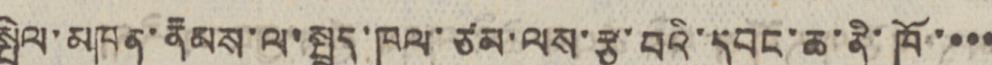སྤེལ་མཁན་རྣམས་ལ་སྤྲད་ཁུལ་ཙམ་ལས་རྩ་བའི་དབང་ཆ་ནི་ཁོ་་་་
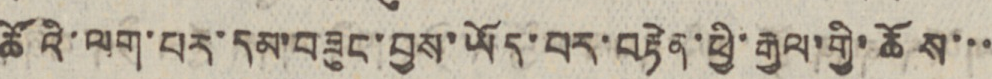ཚོའི་ལག་པར་དམ་བཟུང་བྱས་ཡོད་པར་བརྟེན་ཕྱི་རྒྱལ་གྱི་ཆོས་་་
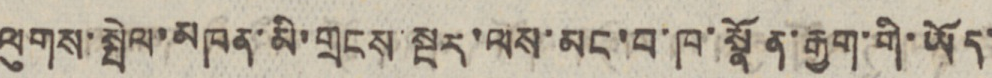ལུགས་སྤེལ་མཁན་མི་གྲངས་སྔར་ལས་མང་བ་ཁ་སྣོན་རྒྱག་གི་ཡོད་
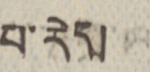པ་རེད།
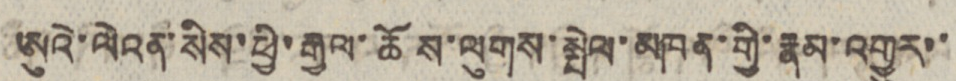ཨུའེ་ལེའན་སིས་ཕྱི་རྒྱལ་ཆོས་ལུགས་སྤེལ་མཁན་གྱི་རྣམ་འགྱུར་་
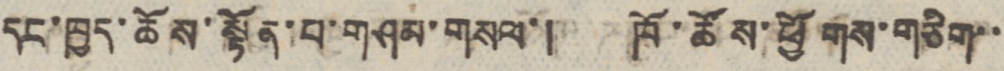དང་ཁྱད་ཆོས་སྟོན་པ་གཤམ་གསལ་། ཁོ་ཚོས་ཕྱོགས་གཅིག་་
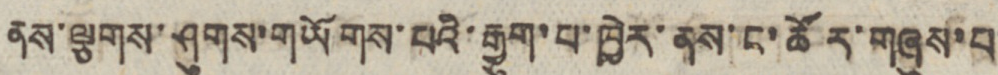ནས་ལྕགས་ཤུགས་གཡོགས་པའི་རྒྱུག་པ་ཁྱེར་ནས་ང་ཚོར་གཞུས་པ་
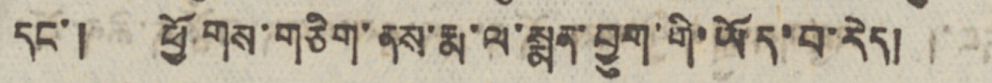དང་། ཕྱོགས་གཅིག་ནས་རྨ་ལ་སྨན་བྱུག་གི་ཡོད་པ་རེད།
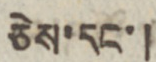ཅེས་དང་།
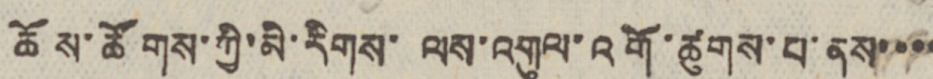ཆོས་ཚོགས་ཀྱི་མི་རིགས་ ལས་འགུལ་འགོ་ཚུགས་པ་ནས་་་་
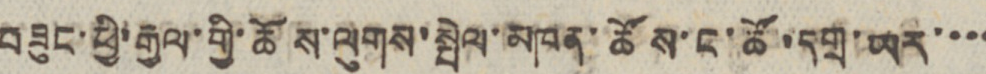བཟུང་ཕྱི་རྒྱལ་གྱི་ཆོས་ལུགས་སྤེལ་མཁན་ཚོས་ང་ཚོ་དགྲ་ཡར་་་་
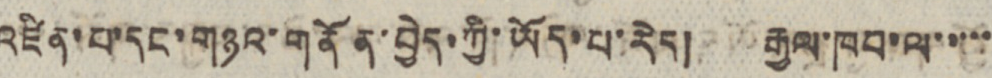འཛིན་པ་དང་གཉའ་གནོན་བྱེད་ཀྱི་ཡོད་པ་རེད། རྒྱལ་ཁབ་ལ་་་་་
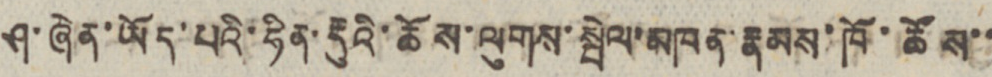ཤ་ཞེན་ཡོད་པའི་ཧིན་རྡུའི་ཆོས་ལུགས་སྤེལ་མཁན་རྣམས་ཁོ་ཚོས་་
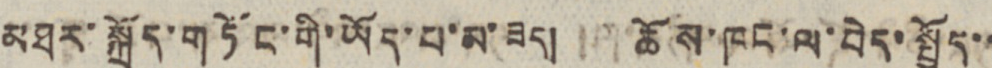མཐར་སྐྲོད་གཏོང་གི་ཡོད་པ་མ་ཟད། ཆོས་ཁང་ལ་བེད་སྤྱོད་་
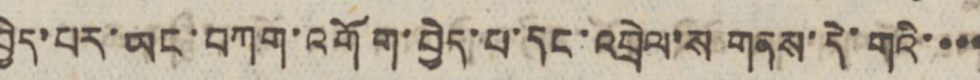བྱེད་པར་ཡང་བཀག་འགོག་བྱེད་པ་དང་འབྲེལ་ས གནས་དེ་གའི་་་་
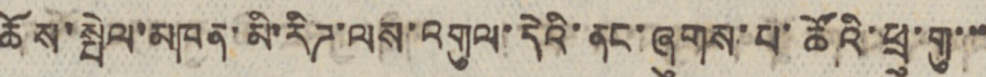ཆོས་སྦེལ་མཁན་མི་རིཊ་ལས་འགུལ་དེའི་ནང་ཞུགས་པ་ཚོའི་ཕྲུ་གུ་་་
